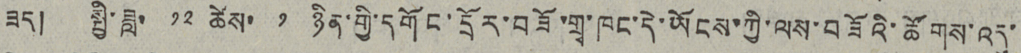ཟད། སྤྱི་ཟླ་ ༡༢ ཚེས་ ༡ ཉིན་གྱི་དགོང་དྲོར་བཟོ་གྲྭ་ཁང་དེ་ཡོངས་ཀྱི་ལས་བཟོའི་ཚོགས་འདུ་
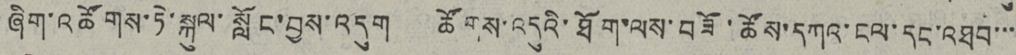ཞིག་འཚོགས་ཏེ་སྐུལ་སློང་བྱས་འདུག ཚོགས་འདུའི་ཐོག་ལས་བཟོ་ཚོས་དཀའ་ངལ་དང་འཐབ་་་་
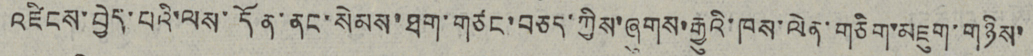འཛིངས་བྱེད་པའི་ལས་དོན་ནང་སེམས་ཐག་གཙང་བཅད་ཀྱིས་ཞུགས་རྒྱུའི་ཁས་ལེན་གཅིག་མཇུག་གཉིས་
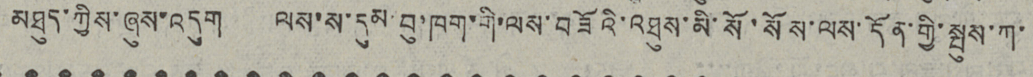མཐུད་ཀྱིས་ཞུས་འདུག ལས་ས་དུམ་བུ་ཁག་གི་ལས་བཟོའི་འཐུས་མི་སོ་སོས་ལས་དོན་གྱི་སྤུས་ཀ་
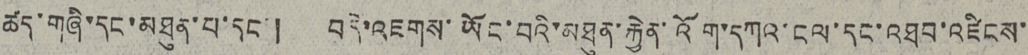ཚད་གཞི་དང་མཐུན་པ་དང་། བདེ་འཇགས་ཡོང་བའི་མཐུན་རྐྱེན་འོག་དཀའ་ངལ་དང་འཐབ་འཛིངས་
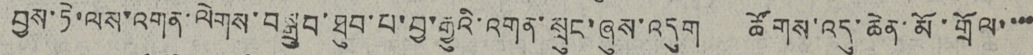བྱས་ཏེ་ལས་འགན་ལེགས་བསྒྲུབ་ཐུབ་པ་བྱ་རྒྱུའི་འགན་སྲུང་ཞུས་འདུག ཚོགས་འདུ་ཆེན་མོ་གྲོལ་་་་
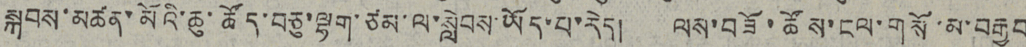སྐབས་མཚན་མོའི་ཆུ་ཚོད་བཅུ་ལྷག་ཙམ་ལ་སླེབས་ཡོད་པ་རེད།  ལས་བཟོ་ཚོས་ངལ་གསོ་མ་བརྒྱབ
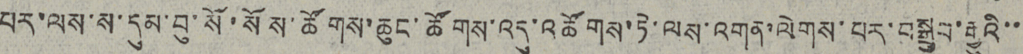པར་ལས་ས་དུམ་བུ་སོ་སོས་ཚོགས་ཆུང་ཚོགས་འདུ་འཚོགས་ཏེ་ལས་འགན་ལེགས་པར་བསྒྲུབ་རྒྱུའི་་
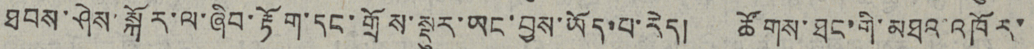ཐབས་ཤེས་སྐོར་ལ་ཞིབ་རྟོག་དང་གྲོས་སྡུར་ཡང་བྱས་ཡོད་པ་རེད། ཚོགས་ཐང་གི་མཐའ་འཁོར་
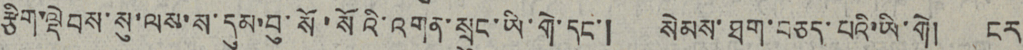རྩིག་ལྡེབས་སུ་ལས་ས་དུམ་བུ་སོ་སོའི་འགན་སྲུང་ཡི་གེ་དང་། སེམས་ཐག་བཅད་པའི་ཡི་གེ། ངར
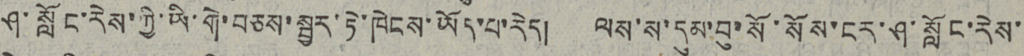ཤ་སློང་རེས་ཀྱི་ཡི་གེ་བཅས་སྦྱར་ཏེ་ཁེངས་ཡོད་པ་རེད། ལས་ས་དུམ་བུ་སོ་སོས་ངར་ཤ་སློང་རེས་
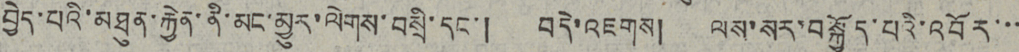བྱེད་པའི་མཐུན་རྐྱེན་ནི་མང་མྱུར་ལེགས་བསྲི་དང་། བདེ་འཇགས། ལས་སར་བསྐྱོད་པའི་འབོར་་་
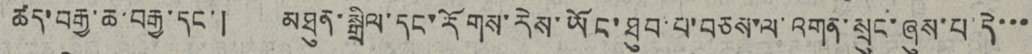ཅད་བརྒྱ་ཆ་བརྒྱ་དང་། མཐུན་སྒྲིལ་དང་རོགས་རེས་ཡོང་ཐུབ་པ་བཅས་ལ་འགན་སྲུང་ཞུས་པ་དེ་་་
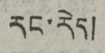རང་རེད།
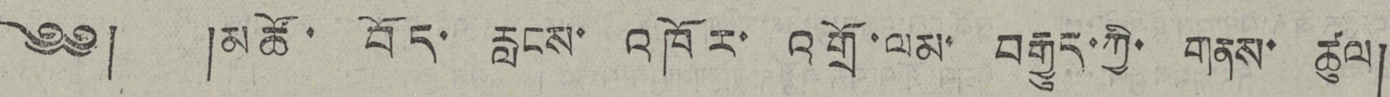༄༅། །མཚོ་ བོད་ རླངས་ འཁོར་ འགྲོ་ལམ་ བརྒྱུད་ཀྱི་ གནས་ ཚུལ།
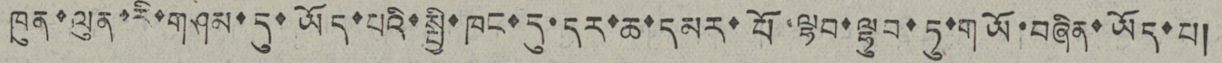ཁུན་ལུན་རི་གཤམ་དུ་ཡོད་པའི་སྤྱི་ཁང་དུ་དར་ཆ་དམར་པོ་ལྷབ་ལྷུབ་ཏུ་གཡོ་བཞིན་ཡོད་པ།
